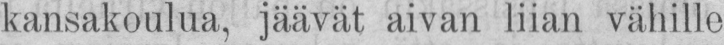kansakoulua, jäävät aivan liian vähille
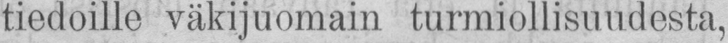tiedoille väkijuomain turmiollisuudesta,
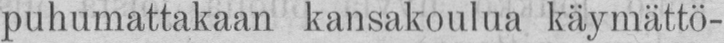puhumattakaan kansakoulua käymättö-
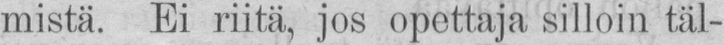mistä. Ei riitä, jos opettaja silloin täl-
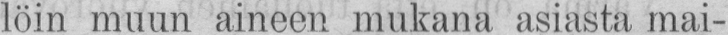löin muun aineen mukana asiasta mai-
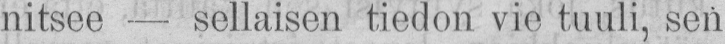nitsee — sellaisen tiedon vie tuuli, sen
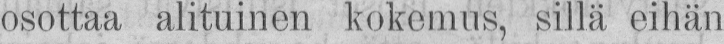osottaa alituinen kokemus, sillä eihän
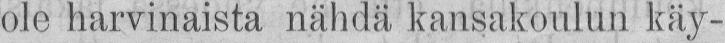ole harvinaista nähdä kansakoulun käy-
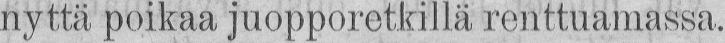nyttä poikaa juopporetkillä renttuamassa.
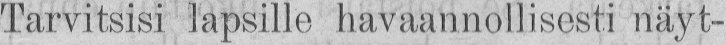Tarvitsisi lapsille havaannollisesti näyt-
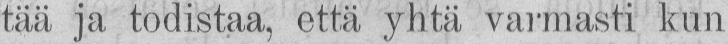tää ja todistaa, että yhtä varmasti kun
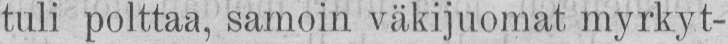tuli polttaa, samoin väkijuomat myrkyt-
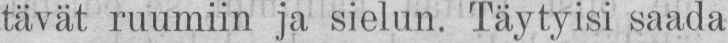tävät ruumiin ja sielun. Täytyisi saada
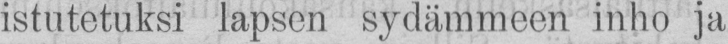istutetuksi lapsen sydämmeen inho ja
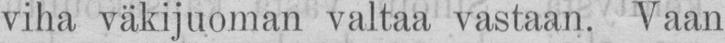viha väkijuoman valtaa vastaan. Vaan
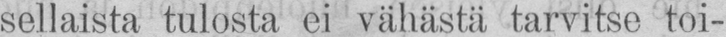sellaista tulosta ei vähästä tarvitse toi-
